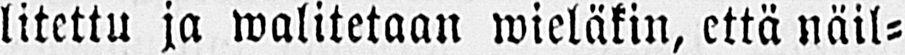litettu ja walitetaan wieläkin, että näil-
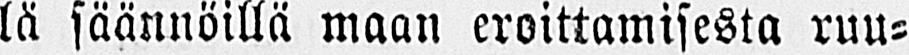lä säännöillä maan eroittamisesta ruu-
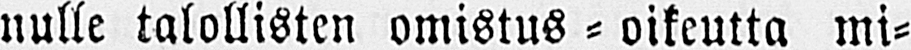nulle talollisten omistus - oikeutta mi-
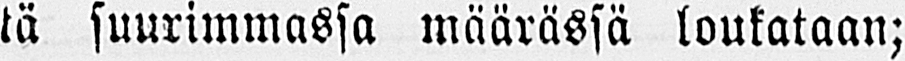tä suurimmassa määrässä loukataan;
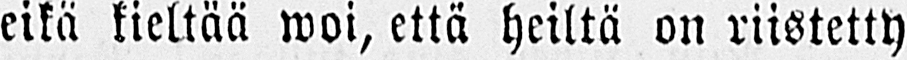eikä kieltää woi, että heiltä on riistetty
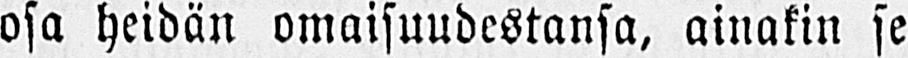osa heidän omaisuudestansa, ainakin se
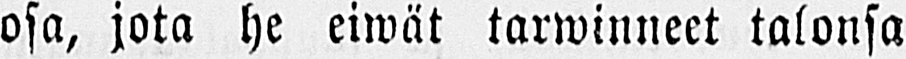osa, jota he eiwät tarwinneet talonsa
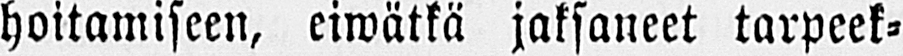hoitamiseen, eiwätkä jaksaneet tarpeek-
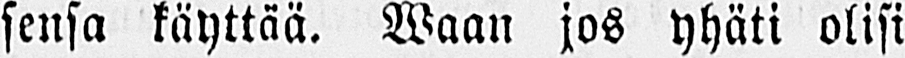sensa käyttää. Waan jos yhäti olisi
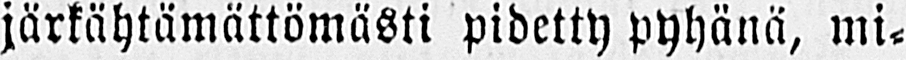järkähtämättömästi pidetty pyhänä, mi-
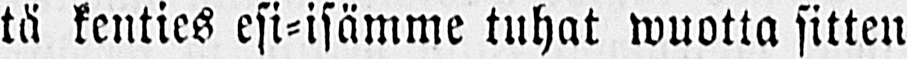tä kenties esi-isämme tuhat wuotta sitten
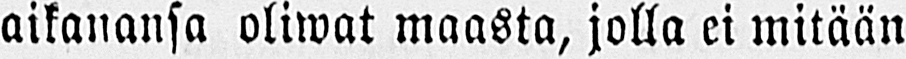aikanansa oliwat maasta, jolla ei mitään
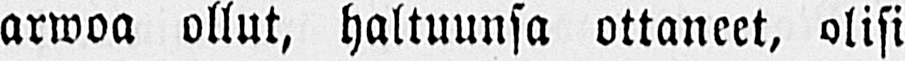arwoa ollut, haltuunsa ottaneet, olisi
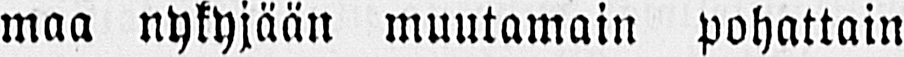maa nykyjään muutamain pohattain
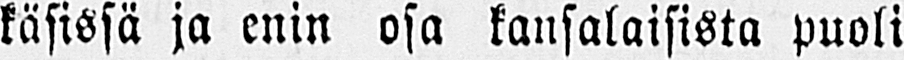käsissä ja enin osa kansalaisista puoli
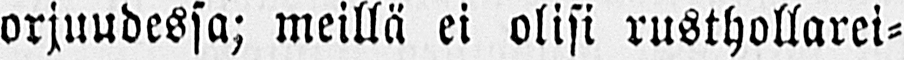orjuudessa; meillä ei olisi rusthollarei-
